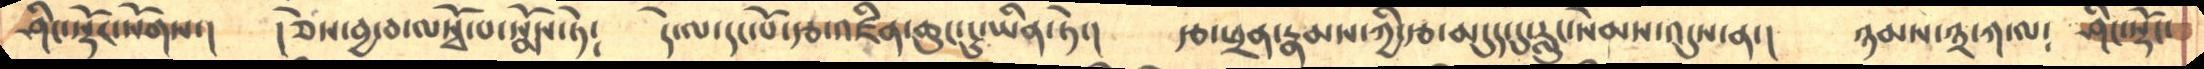ཤིང་སྡོང་སོགས་།    །ཅེས་བྱ་བ་ལསྭོ་པ་སྨོས་ཏེ༴     དེ་ལ་དང་པོ་རྩ་འཛིན་ཆུང་ངུ་ཡིན་ཏེ་།     རྩ་ཕྲན་རྣམས་ཀྱི་རྩ་མདུད་དུ་རླུང་སེམས་འདུས་ན་།    ཉམས་༣་ཀ་ལ༴    ཤིང་སྡོང་
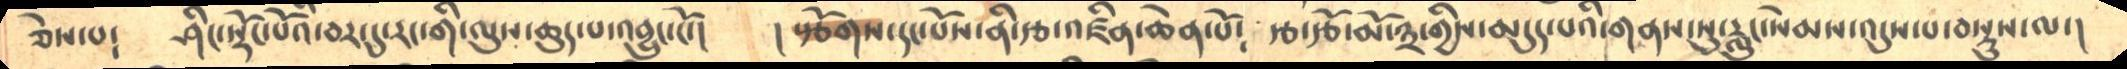ཅེས་པ༴      ཤིང་སྡོང་པོའི་བར་དུ་རང་གི་ལུས་ཆུད་པ་འབྱུང་ངོ་།   །སྩོགས་དང་པོས་ནི་རྩ་འཛིན་ཆེན་པོ༴   རྩ་རྩོ་མོ་༣་གྱིས་མདུད་པའི་གནས་སུ་རླུང་སེམས་འདུས་པ་བསྡུས་ལ་།
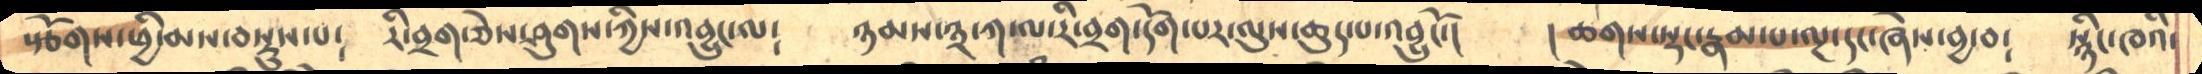སྩོགས་ཕྱི་མས་བསྡུས་པ༴      རི་བྲག་ཅེས་ཤུགས་ཀྱིས་འབྱུང་ལ༴     ཉམས་༣་ཀ་ལ་རི་བྲག་དོག་པར་ལུས་ཆུད་པ་འབྱུངོ་།    །ཆགས་སྡང་རྣམ་པ་ལྔ་དང་ཞེས་བྱ་བ༴    སྙིང་ཁའི་
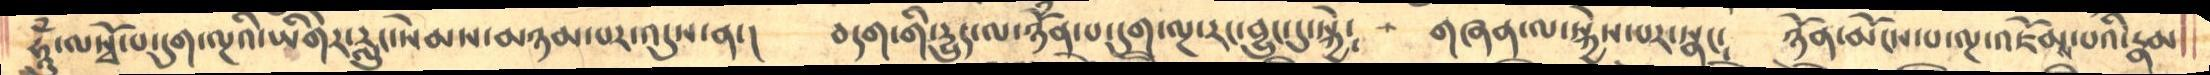ཧཱུཾ་ལསྭོ་པ་དུག་ལྔའི་ཡིགེར་རླུང་སེམས་མཉམ་པར་འདུས་ན་།      བདག་གི་དྱུད་ལ་ཉོཾན་པ་དུག་ལྔ་རང་བྱུང་དུ་སྐྱེ༴     གཞན་ལ་སྐྱེས་པར་སྣང༴   ཉོན་མོངས་པ་ལྔ་འཇོམས་པའི་རྣམ
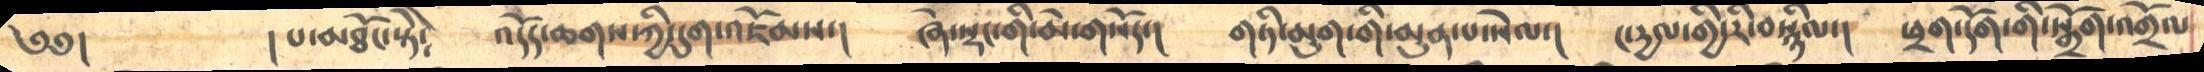༄༅།            །པ་མཐོང་སྟེེ༴       འདོད་ཆགས་ཀྱི་དུག་འཇོམས་།    ཞེ་སྡང་གི་མེ་གསོད་།    གཏི་མུག་གི་མུན་པ་སེལ་།    ང་དྱལ་གྱི་རི་བསྙིལ་།   ཕྲག་དོག་གི་སྒྲོག་འགྲོལ
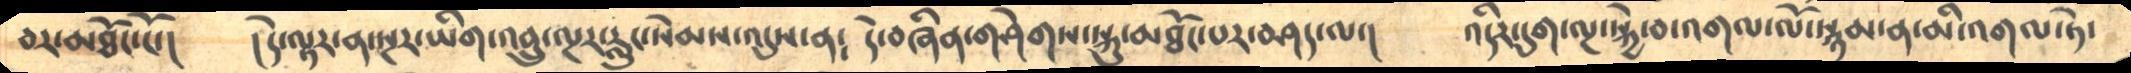བར་མཐོང་ངོ་།     །དེ་ལྟར་ན་སྔར་ཡིག་འབྲུ་ལྔར་རླུང་སེམས་འདུས་ན༴   དེ་བཞིན་གཤེགས་སྐུ་མཐོང་པར་བཤད་ལ་།    འདིར་དུག་ལྔ་སྐྱེ་བ་འགལ་ལོ་སྙམ་ན་མི་འགལ་ཏེ་
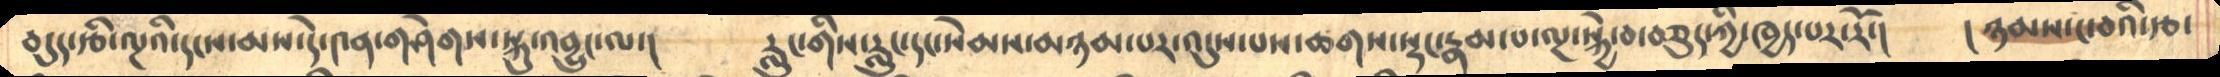བདུད་རྩི་ལྔའི་དངས་མས་དེ་༤ན་གཤེགས་སྐུ་འབྱུང་ལ་།       རླུང་གིས་རླུང་དང་སེམས་མཉམ་པར་འདུས་པས་ཆགས་སྡང་རྣམ་པ་ལྔ་སྐྱེ་བ་བཅུད་ཀྱི་ཁྱད་པར་རོ་།      །ཉམས་ང་བའི་རྩ་
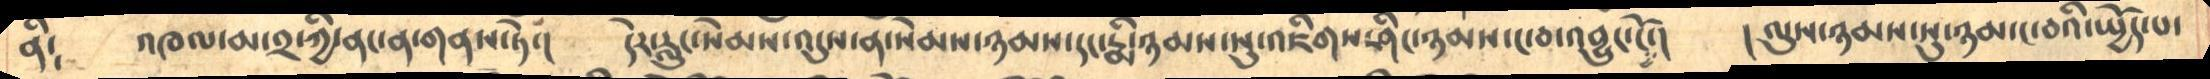ནི༴     འཁལ་མ་༢་ཀྱི་ནང་ན་གནས་ཏེ་།    དེར་རླུང་སེམས་འདུས་ན་སེམས་ཉམས་དང་རྨི་ཉམས་སུ་འཇིགས་ཤིང་ཉམས་ང་བ་འབྱུང་ངོ་།      །ལུས་ཉམས་སུ་ཉམ་ང་བའི་སྤྱོད་པ་
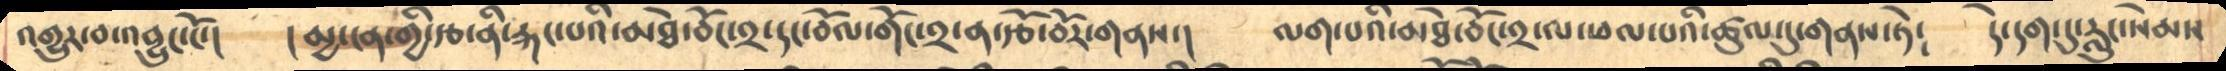འགྱུར་བ་འབྱུང་ངོ་།    །མྱ་ངན་གྱི་རྩ་ནི་རྐང་པའི་མཐེ་བོང་༢་དང་བོལ་གོང་༢་ན་རྩོ་བོར་གནས་།     ལག་པའི་མཐེ་བོང་༢་ལ་ཕལ་པའི་ཚུལ་དུ་གནས་ཏེ༴     དེ་དག་དུ་རླུང་སེམས
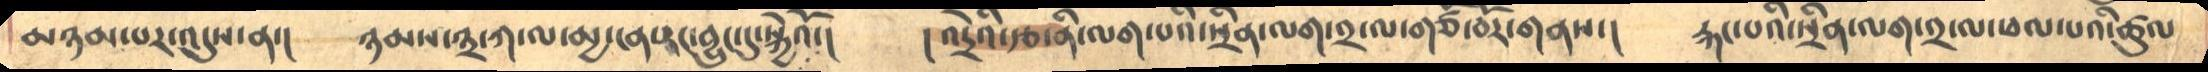མཉམ་པར་འདུས་ན་།    ཉམས་༣་ཀ་ལ་མྱ་ངན་རང་བྱུང་དུ་སྐྱེའོ་།     །འདྲེའི་རྩ་ནི་ལག་པའི་སྲིན་ལག་༢་ལ་གཙོ་བོར་གནས་།    རྐང་པའི་སྲིན་ལག་༢་ལ་ཕལ་པའི་ཚུལ
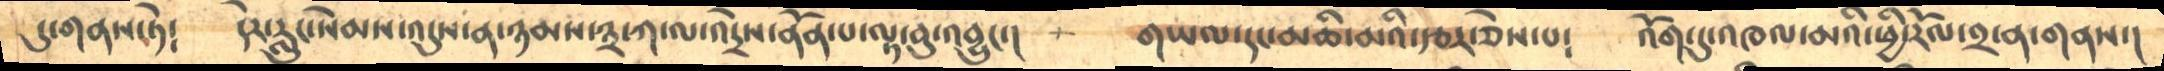དུ་གནས་ཏེ༴    དེར་རླུང་སེམས་འདུས་ན་ཉམས་༣་ཀ་ལ་འདྲེས་ནོན་པ་ལྟ་བུ་འབྱུང་།     གཡལ་དང་མཆི་མའི་རྩར་ཅེས་པ༴   འོག་དུ་འཁལ་མའི་ཕྱི་རོལ་༢་ན་གནས་།
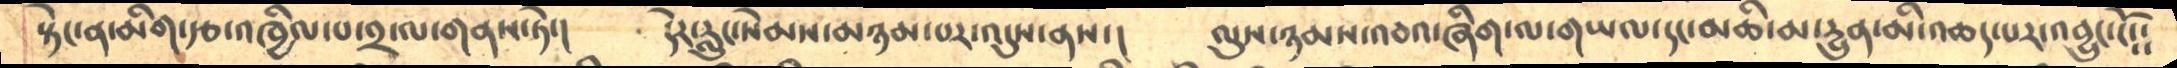སྟེང་ན་མིག་རྩ་འཁྱིལ་པ་༢་ལ་གནས་ཏེ་།       དེར་རླུང་སེམས་མཉམ་པར་འདུས་ནས་།     ལུས་ཉམས་འབའ་ཞིག་ལ་གཡལ་དང་མཆི་མ་དྱུན་མི་འཆད་པར་འབྱུང་ངོ༴༴
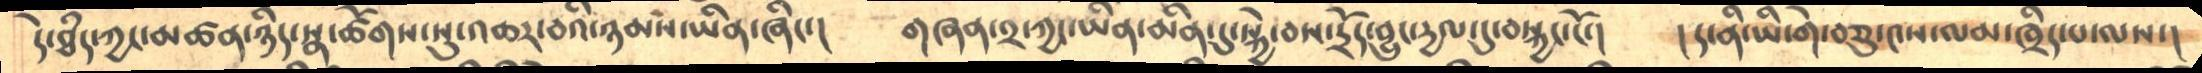དེ་ཐཾད་ཀྱང་མཚན་ཉིད་སྣ་ཚོགས་སུ་འཆར་བའི་ཉམས་ཡིན་ཞིང་།      གཞན་༢་ཀྱང་ཡིན་མིན་དུ་སྐྱེ་བས་དྲོད་བྱུང་དྱལ་དུ་བསྐྱང་ངོ་།     །ད་ནི་ཡི་གེ་བཅུ་༤ས་ལམ་ཁྲིད་པ་ལས་།
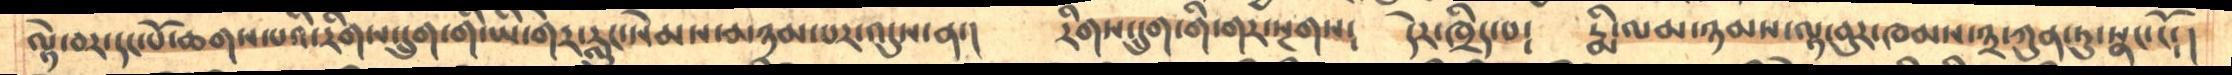ལྟེ་བར་དང་པོ་ཆགས་པའི་རིགས་དྲུག་གི་ཡི་གེར་རླུང་སེམས་མཉམ་པར་འདུས་ན་།     རིགས་དྲུག་གི་གར་སྔགས༴     དེར་ཁྲིད་པ༴      རྨི་ལམ་ཉམས་ལྟ་བུར་ཁམས་༣་ཀུན་ཏུ་སྣང་ངོ་།
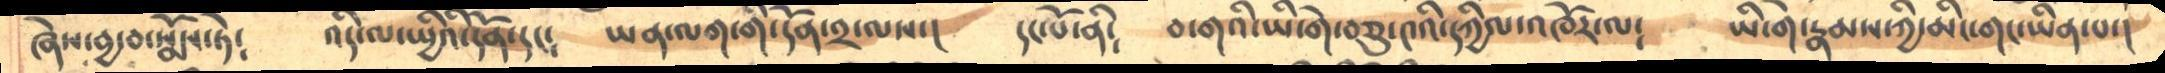ཞེས་བྱ་བ་སྨོས་ཏེ༴      འདི་ལ་སྤྱིའི་དོན་དང༴    ཡན་ལག་གི་དོན་༢་ལས་།     དང་པོ་ནི༴    བ་གའི་ཡི་གེ་བཅུ་༤འི་དཀྱིལ་འཁོར་ལ༴     ཡི་གེ་རྣམས་ཀྱི་མིང་གང་ཡིན་པ་།
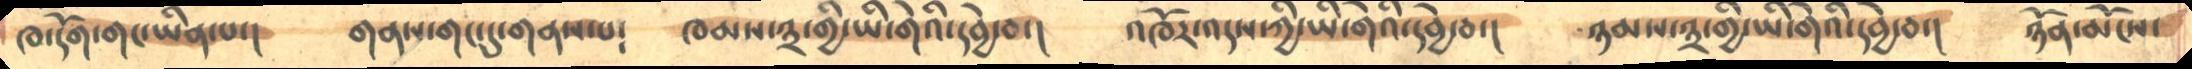ཁ་དོག་གང་ཡིན་པ་།      གནས་གང་དུ་གནས་པ༴      ཁམས་༣་གྱི་ཡི་གེའི་དབྱེ་བ་།     འཁོར་འདས་ཀྱི་ཡི་གེའི་དབྱེ་བ་།    ཉམས་༣་གྱི་ཡི་གེའི་དབྱེ་བ་།    ཉོན་མོངས་
